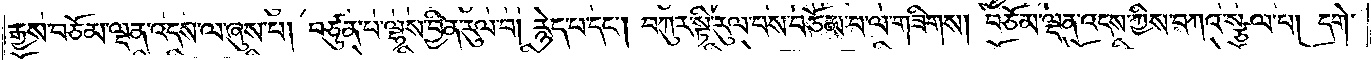རྒྱས་བཅོམ་ལྡན་འདས་ལ་ཞུས་པ། བཙུན་པ་ལྷས་བྱིན་རུལ་བ། རྙེད་པ་དང༌། བཀུར་སྟི་རུལ་པས་བཅོམ་པ་ལ་གཟིགས། བཅོམ་ལྡན་འདས་ཀྱིས་བཀའ་སྩལ་པ། དགེ་
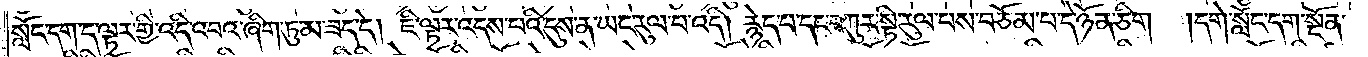སློང་དག་ད་ལྟར་གྱི་འདི་འབའ་ཞིག་ཏུ་མ་ཟད་དེ། ཇི་ལྟར་འདས་པའི་དུས་ན་ཡང་རུལ་པ་འདི། རྙེད་པ་དང་བཀུར་སྟི་རུལ་པས་བཅོམ་པ་དེ་ཉོན་ཅིག །དགེ་སློང་དག་སྔོན་
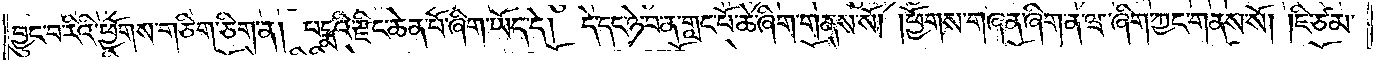བྱུང་བ་རིའི་ཕྱོགས་གཅིག་ཅིག་ན། པདྨའི་རྫིང་ཆེན་པོ་ཞིག་ཡོད་དེ། དེ་དང་ཉེ་བ་ན་གླང་པོ་ཆེ་ཞིག་གནས་སོ། །ཕྱོགས་གཞན་ཞིག་ན་ཝ་ཞིག་ཀྱང་གནས་སོ། །ཇི་ཙམ་
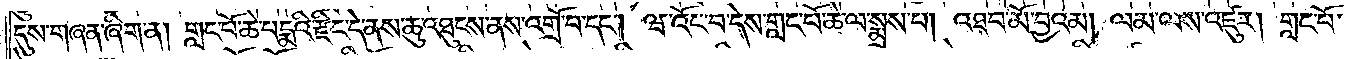དུས་གཞན་ཞིག་ན། གླང་པོ་ཆེ་པདྨའི་རྫིང་དེ་ནས་ཆུ་འཐུངས་ནས་འགྲོ་བ་དང༌། ཝ་འོང་བ་དེས་གླང་པོ་ཆེ་ལ་སྨྲས་པ། འཐབ་མོ་བྱའམ། ལམ་ལས་འཛུར། གླང་པོ་
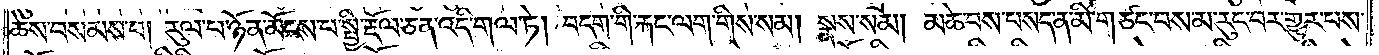ཆེས་བསམས་པ། རུལ་པ་ཉོན་མོངས་པ་སྤྱི་རྡོལ་ཅན་འདི་གལ་ཏེ། བདག་གི་རྐང་ལག་གིས་སམ། སྣས་སམ། མཆེ་བས་བསད་ན་མི་གཙང་བས་མ་རུང་བར་གྱུར་པས་
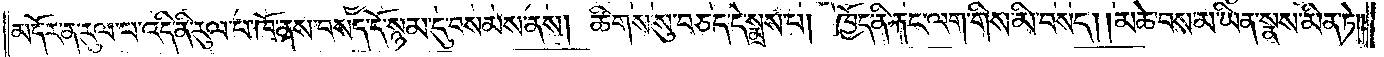མདོར་ན་རུལ་པ་འདི་ནི་རུལ་པ་ཁོ་ནས་བསད་དོ་སྙམ་དུ་བསམས་ནས། ཚིགས་སུ་བཅད་དེ་སྨྲས་པ། ཁྱོད་ནི་རྐང་ལག་གིས་མི་བསད། །མཆེ་བས་མ་ཡིན་སྣས་མིན་ཏེ༎
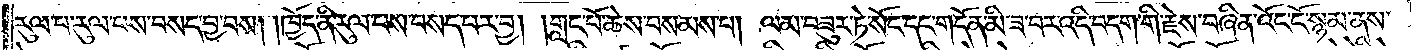རུལ་པ་རུལ་པས་བསད་བྱ་བས། །ཁྱོད་ནི་རུལ་པས་བསད་པར་བྱ། །གླང་པོ་ཆེས་བསམས་པ། ལམ་བཟུར་ཏེ་སོང་དང་གདོན་མི་ཟ་བར་འདི་བདག་གི་རྗེས་བཞིན་འོང་ངོ་སྙམ་ནས་
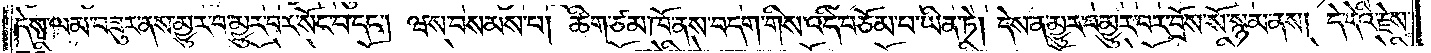དེས་ལམ་བཟུར་ནས་མྱུར་བ་མྱུར་བར་སོང་བ་དང༌། ཝས་བསམས་པ། ཚིག་ཙམ་ཁོ་ནས་བདག་གིས་འདི་བཅོམ་པ་ཡིན་ཏེ། དེས་ན་མྱུར་བ་མྱུར་བར་བྲོས་སོ་སྙམ་ནས། དེ་དེའི་རྗེས་
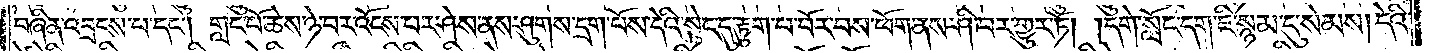བཞིན་འབྲངས་པ་དང༌། གླང་པོ་ཆེས་ཉེ་བར་འོངས་པར་ཤེས་ནས་ཤུགས་དྲག་པོས་དེའི་སྟེང་དུ་རྟུག་པ་པོར་བས་ཕོག་ནས་ཤི་བར་གྱུར་ཏོ། །དགེ་སློང་དག་ཇི་སྙམ་དུ་སེམས། དེའི་
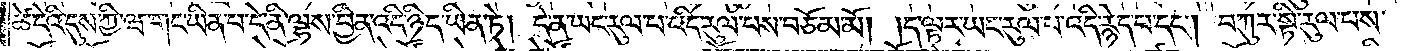ཚེ་དེའི་དུས་ཀྱི་ཝ་གང་ཡིན་པ་དེ་ནི་ལྷས་བྱིན་འདི་ཉིད་ཡིན་ཏེ། དེ་ན་ཡང་རུལ་པ་འདི་རུལ་པས་བཅོམ་མོ། །ད་ལྟར་ཡང་རུལ་པ་འདི་རྙེད་པ་དང༌། བཀུར་སྟི་རུལ་པས་
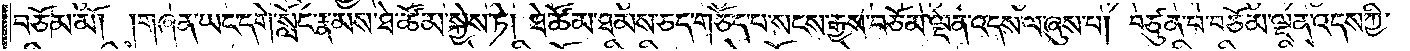བཅོམ་མོ། །གཞན་ཡང་དགེ་སློང་རྣམས་ཐེ་ཚོམ་སྐྱེས་ཏེ། ཐེ་ཚོམ་ཐམས་ཅད་གཅོད་པ་སངས་རྒྱས་བཅོམ་ལྡན་འདས་ལ་ཞུས་པ། བཙུན་པ་བཅོམ་ལྡན་འདས་ཀྱི་
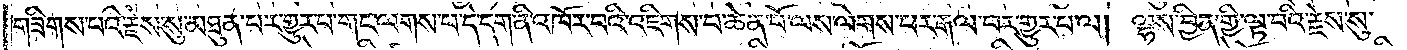གཟིགས་པའི་རྗེས་སུ་མཐུན་པར་གྱུར་པ་གང་ལགས་པ་དེ་དག་ནི་འཁོར་བའི་འཇིགས་པ་ཆེན་པོ་ལས་ལེགས་པར་རྒལ་པར་གྱུར་པ་ལ། ལྷས་བྱིན་གྱི་ལྟ་བའི་རྗེས་སུ་
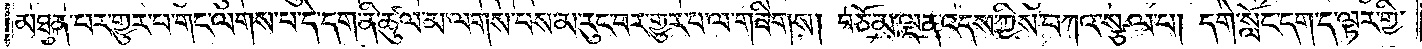མཐུན་པར་གྱུར་པ་གང་ལགས་པ་དེ་དག་ནི་ཚུལ་མ་ལགས་པས་མ་རུང་བར་གྱུར་པ་ལ་གཟིགས། བཅོམ་ལྡན་འདས་ཀྱིས་བཀའ་སྩལ་པ། དགེ་སློང་དག་ད་ལྟར་གྱི་
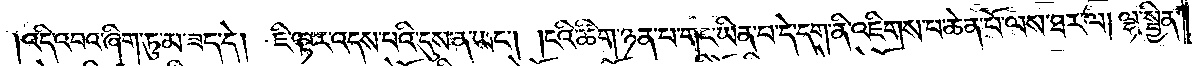འདི་འབའ་ཞིག་ཏུ་མ་ཟད་དེ། ཇི་ལྟར་འདས་པའི་དུས་ན་ཡང༌། །ངའི་ཚིག་ཉན་པ་གང་ཡིན་པ་དེ་དག་ནི་འཇིགས་པ་ཆེན་པོ་ལས་ཐར་ལ། ལྷ་སྦྱིན་
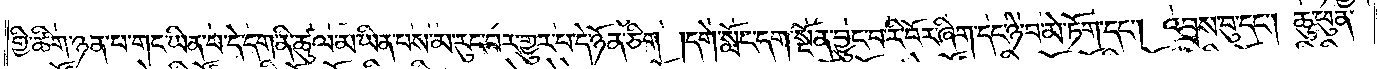གྱི་ཚིག་ཉན་པ་གང་ཡིན་པ་དེ་དག་ནི་ཚུལ་མ་ཡིན་པས་མ་རུང་བར་གྱུར་པ་དེ་ཉོན་ཅིག །དགེ་སློང་དག་སྔོན་བྱུང་བ་རི་བོར་ཞིག་དང་ཉེ་བ་མེ་ཏོག་དང༌། འབྲས་བུ་དང༌། ཆུ་ཕུན་
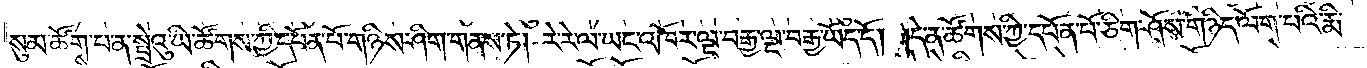སུམ་ཚོགས་པ་ན་སྤྲེའུ་ཡི་ཚོགས་ཀྱི་དཔོན་པོ་གཉིས་ཤིག་གནས་ཏེ། རེ་རེ་ལ་ཡང་འཁོར་ལྔ་བརྒྱ་ལྔ་བརྒྱ་ཡོད་དོ། །དེ་ན་ཚོགས་ཀྱི་དཔོན་པོ་ཅིག་ཤོས་གཉིད་ལོག་པའི་རྨི་
